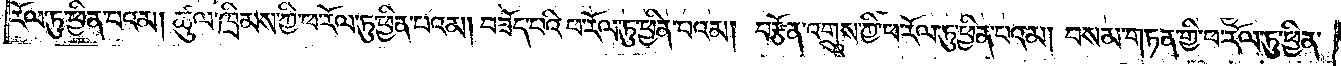རོལ་ཏུ་ཕྱིན་པའམ། ཚུལ་ཁྲིམས་ཀྱི་ཕ་རོལ་ཏུ་ཕྱིན་པའམ། བཟོད་པའི་ཕ་རོལ་ཏུ་ཕྱིན་པའམ། བརྩོན་འགྲུས་ཀྱི་ཕ་རོལ་ཏུ་ཕྱིན་པའམ། བསམ་གཏན་གྱི་ཕ་རོལ་ཏུ་ཕྱིན་
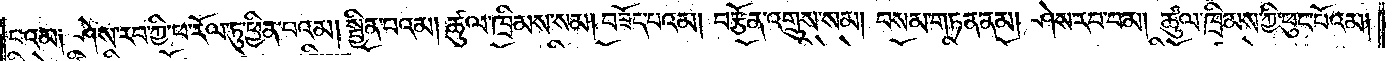པའམ༑ ཤེས་རབ་ཀྱི་ཕ་རོལ་ཏུ་ཕྱིན་པའམ། སྦྱིན་པའམ། ཚུལ་ཁྲིམས་སམ། བཟོད་པའམ། བརྩོན་འགྲུས་སམ། བསམ་གཏན་ནམ། ཤེས་རབ་བམ། ཚུལ་ཁྲིམས་ཀྱི་ཕུང་པོའམ།
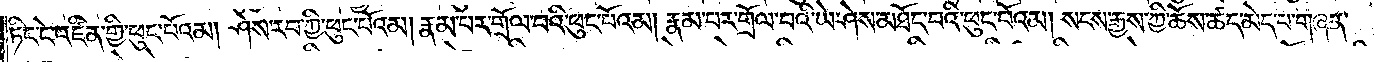ཏིང་ངེ་འཛིན་གྱི་ཕུང་པོའམ། ཤེས་རབ་ཀྱི་ཕུང་པོའམ། རྣམ་པར་གྲོལ་བའི་ཕུང་པོའམ། རྣམ་པར་གྲོལ་བའི་ཡེ་ཤེས་མཐོང་བའི་ཕུང་པོའམ། སངས་རྒྱས་ཀྱི་ཆོས་ཚད་མེད་པ་གཞན་
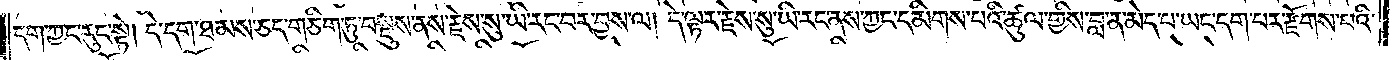དག་ཀྱང་རུང་སྟེ། དེ་དག་ཐམས་ཅད་གཅིག་ཏུ་བསྡུས་ནས་རྗེས་སུ་ཡི་རང་བར་བྱས་ལ། དེ་ལྟར་རྗེས་སུ་ཡི་རང་ནས་ཀྱང་དམིགས་པའི་ཚུལ་གྱིས་བླ་ན་མེད་པ་ཡང་དག་པར་རྫོགས་པའི་
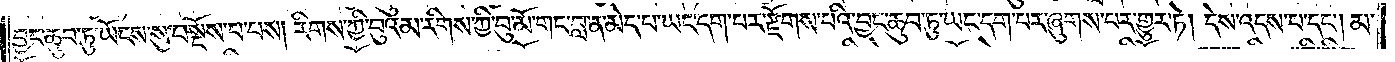བྱང་ཆུབ་ཏུ་ཡོངས་སུ་བསྔོས་པ་པས། རིགས་ཀྱི་བུའམ་རིགས་ཀྱི་བུ་མོ་གང་བླ་ན་མེད་པ་ཡང་དག་པར་རྫོགས་པའི་བྱང་ཆུབ་ཏུ་ཡང་དག་པར་ཞུགས་པར་གྱུར་ཏེ། དེས་འདས་པ་དང༌། མ་
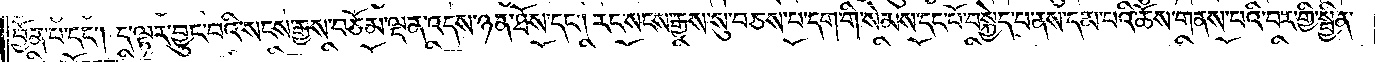བྱོན་པ་དང༌། ད་ལྟར་བྱུང་བའི་སངས་རྒྱས་བཅོམ་ལྡན་འདས་ཉན་ཐོས་དང༌། རང་སངས་རྒྱས་སུ་བཅས་པ་དག་གི་སེམས་དང་པོ་བསྐྱེད་པ་ནས་དམ་པའི་ཆོས་གནས་པའི་བར་གྱི་སྦྱིན་
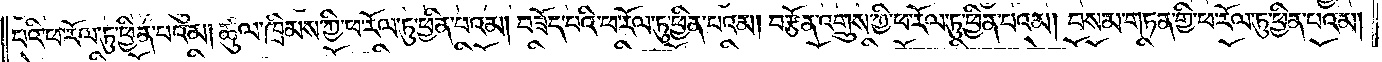པའི་ཕ་རོལ་ཏུ་ཕྱིན་པའམ། ཚུལ་ཁྲིམས་ཀྱི་ཕ་རོལ་ཏུ་ཕྱིན་པའམ། བཟོད་པའི་ཕ་རོལ་ཏུ་ཕྱིན་པའམ། བརྩོན་འགྲུས་ཀྱི་ཕ་རོལ་ཏུ་ཕྱིན་པའམ། བསམ་གཏན་གྱི་ཕ་རོལ་ཏུ་ཕྱིན་པའམ།
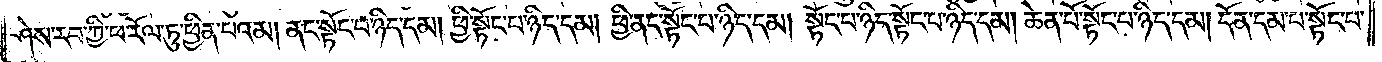ཤེས་རབ་ཀྱི་ཕ་རོལ་ཏུ་ཕྱིན་པའམ། ནང་སྟོང་པ་ཉིད་དམ། ཕྱི་སྟོང་པ་ཉིད་དམ། ཕྱི་ནང་སྟོང་པ་ཉིད་དམ། སྟོང་པ་ཉིད་སྟོང་པ་ཉིད་དམ། ཆེན་པོ་སྟོང་པ་ཉིད་དམ། དོན་དམ་པ་སྟོང་པ་
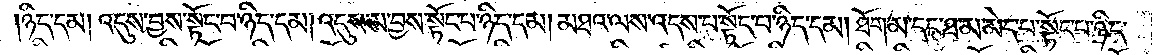ཉིད་དམ། འདུས་བྱས་སྟོང་པ་ཉིད་དམ། འདུས་མ་བྱས་སྟོང་པ་ཉིད་དམ། མཐའ་ལས་འདས་པ་སྟོང་པ་ཉིད་དམ། ཐོག་མ་དང་ཐ་མ་མེད་པ་སྟོང་པ་ཉིད་
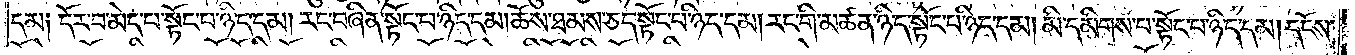དམ༑ དོར་བ་མེད་པ་སྟོང་པ་ཉིད་དམ། རང་བཞིན་སྟོང་པ་ཉིད་དམ། ཆོས་ཐམས་ཅད་སྟོང་པ་ཉིད་དམ། རང་གི་མཚན་ཉིད་སྟོང་པ་ཉིད་དམ། མི་དམིགས་པ་སྟོང་པ་ཉིད་དམ། དངོས་
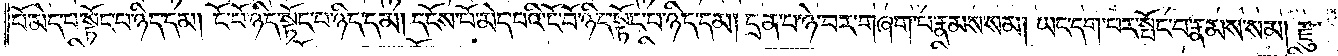པོ་མེད་པ་སྟོང་པ་ཉིད་དམ། ངོ་བོ་ཉིད་སྟོང་པ་ཉིད་དམ། དངོས་པོ་མེད་པའི་ངོ་བོ་ཉིད་སྟོང་པ་ཉིད་དམ། དྲན་པ་ཉེ་བར་གཞག་པ་རྣམས་སམ། ཡང་དག་པར་སྤོང་བ་རྣམས་སམ། རྫུ་
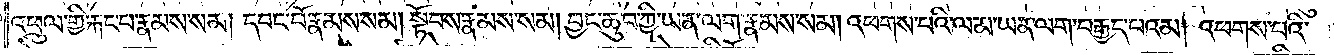འཕྲུལ་གྱི་རྐང་པ་རྣམས་སམ། དབང་པོ་རྣམས་སམ། སྟོབས་རྣམས་སམ། བྱང་ཆུབ་ཀྱི་ཡན་ལག་རྣམས་སམ། འཕགས་པའི་ལམ་ཡན་ལག་བརྒྱད་པའམ། འཕགས་པའི་
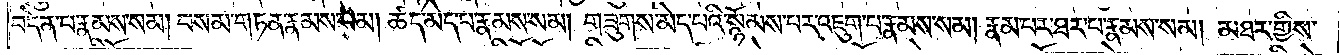བདེན་པ་རྣམས་སམ། བསམ་གཏན་རྣམས་སམ། ཚད་མེད་པ་རྣམས་སམ། གཟུགས་མེད་པའི་སྙོམས་པར་འཇུག་པ་རྣམས་སམ། རྣམ་པར་ཐར་པ་རྣམས་སམ། མཐར་གྱིས་
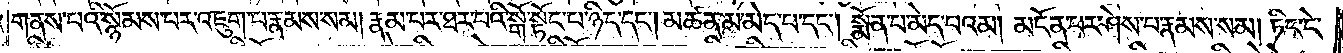གནས་པའི་སྙོམས་པར་འཇུག་པ་རྣམས་སམ། རྣམ་པར་ཐར་པའི་སྒོ་སྟོང་པ་ཉིད་དང༌། མཚན་མ་མེད་པ་དང༌། སྨོན་པ་མེད་པའམ། མངོན་པར་ཤེས་པ་རྣམས་སམ། ཏིང་ངེ་
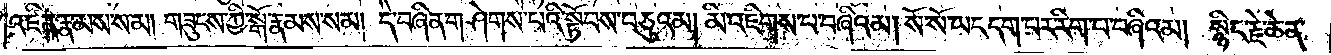འཛིན་རྣམས་སམ། གཟུངས་ཀྱི་སྒོ་རྣམས་སམ། དེ་བཞིན་གཤེགས་པའི་སྟོབས་བཅུའམ། མི་འཇིགས་པ་བཞིའམ། སོ་སོ་ཡང་དག་པར་རིག་པ་བཞིའམ། སྙིང་རྗེ་ཆེན་
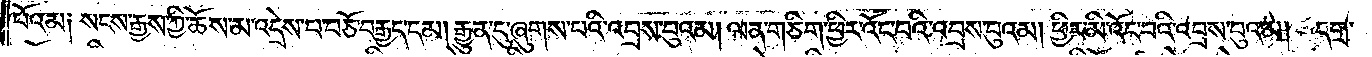པོའམ༑ སངས་རྒྱས་ཀྱི་ཆོས་མ་འདྲེས་པ་བཅོ་བརྒྱད་དམ། རྒྱུན་དུ་ཞུགས་པའི་འབྲས་བུའམ། ལན་གཅིག་ཕྱིར་འོང་བའི་འབྲས་བུའམ། ཕྱིར་མི་འོང་བའི་འབྲས་བུའམ། དགྲ་
